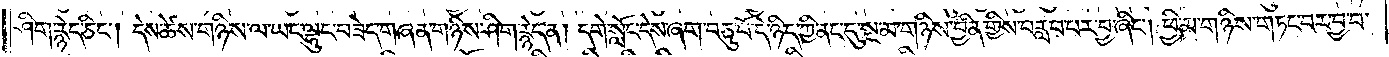ཤིག་རྙེད་ཅིང༌། དེས་ཚེས་གཉིས་ལ་ཡང་ལྷུང་བཟེད་གཞན་གཉིས་ཤིག་རྙེད་ན། དགེ་སློང་དེས་ཞག་བཅུ་པོ་དེ་ཉིད་ཀྱི་ནང་དུ་སྔ་མ་གཉིས་བྱིན་གྱིས་བརླབ་པར་བྱ་ཞིང༌། ཕྱི་མ་གཉིས་གཏང་བར་བྱ་བ་
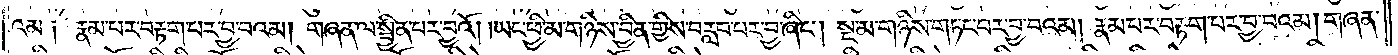འམ༑ རྣམ་པར་བརྟག་པར་བྱ་བའམ། གཞན་ལ་སྦྱིན་པར་བྱའོ། །ཡང་ཕྱི་མ་གཉིས་བྱིན་གྱིས་བརླབ་པར་བྱ་ཞིང༌། སྔ་མ་གཉིས་གཏང་བར་བྱ་བའམ། རྣམ་པར་བརྟག་པར་བྱ་བའམ། གཞན་
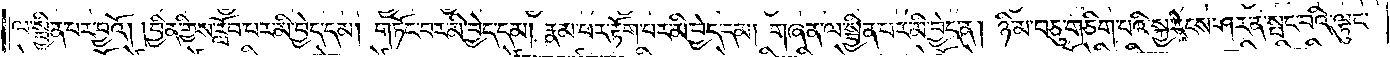ལ་སྦྱིན་པར་བྱའོ། །བྱིན་གྱིས་རློབ་པར་མི་བྱེད་དམ། གཏོང་བར་མི་བྱེད་དམ། རྣམ་པར་རྟོག་པར་མི་བྱེད་དམ། གཞན་ལ་སྦྱིན་པར་མི་བྱེད་ན། ཉི་མ་བཅུ་གཅིག་པའི་སྐྱ་རེངས་ཤར་ན་སྤང་བའི་ལྟུང་
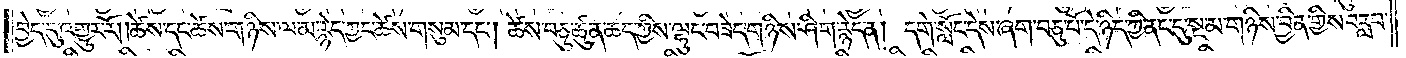བྱེད་དུ་འགྱུར་རོ། །ཚེས་དང་ཚེས་གཉིས་ལ་མ་རྙེད་ཀྱང་ཚེས་གསུམ་དང༌། ཚེས་བཅུ་ཚུན་ཆད་ཀྱིས་ལྷུང་བཟེད་གཉིས་ཤིག་རྙེད་ན། དགེ་སློང་དེས་ཞག་བཅུ་པོ་དེ་ཉིད་ཀྱི་ནང་དུ་སྔ་མ་གཉིས་བྱིན་གྱིས་བརླབ་
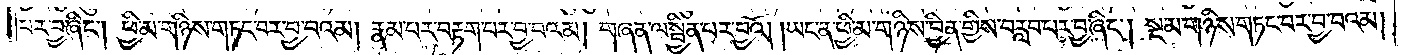པར་བྱ་ཞིང༌། ཕྱི་མ་གཉིས་གཏང་བར་བྱ་བའམ། རྣམ་པར་བརྟག་པར་བྱ་བའམ། གཞན་ལ་སྦྱིན་པར་བྱའོ། །ཡང་ན་ཕྱི་མ་གཉིས་བྱིན་གྱིས་བརླབ་པར་བྱ་ཞིང༌། སྔ་མ་གཉིས་གཏང་བར་བྱ་བའམ།
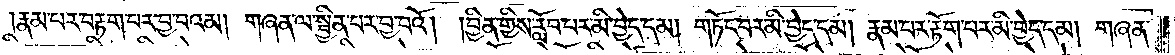རྣམ་པར་བརྟག་པར་བྱ་བའམ། གཞན་ལ་སྦྱིན་པར་བྱ་བའོ། །བྱིན་གྱིས་རློབ་པར་མི་བྱེད་དམ། གཏོང་བར་མི་བྱེད་དམ། རྣམ་པར་རྟོག་པར་མི་བྱེད་དམ། གཞན་
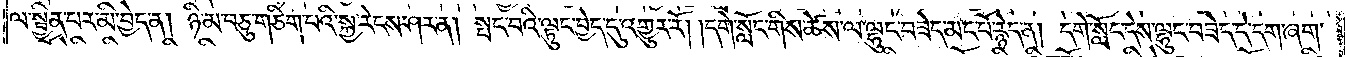ལ་སྦྱིན་པར་མི་བྱེད་ན། ཉི་མ་བཅུ་གཅིག་པའི་སྐྱ་རེངས་ཤར་ན། སྤང་བའི་ལྟུང་བྱེད་དུ་འགྱུར་རོ། །དགེ་སློང་གིས་ཚེས་ལ་ལྷུང་བཟེད་མང་པོ་རྙེད་ན། དགེ་སློང་དེས་ལྷུང་བཟེད་དེ་དག་ཞག་
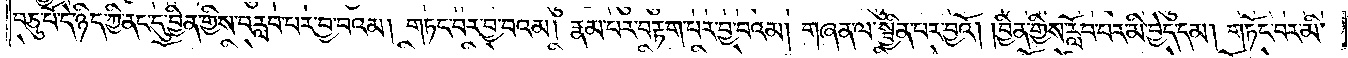བཅུ་པོ་དེ་ཉིད་ཀྱི་ནང་དུ་བྱིན་གྱིས་བརླབ་པར་བྱ་བའམ། གཏང་བར་བྱ་བའམ། རྣམ་པར་བརྟག་པར་བྱ་བའམ། གཞན་ལ་སྦྱིན་པར་བྱའོ། །བྱིན་གྱིས་རློབ་པར་མི་བྱེད་དམ། གཏོང་བར་མི་
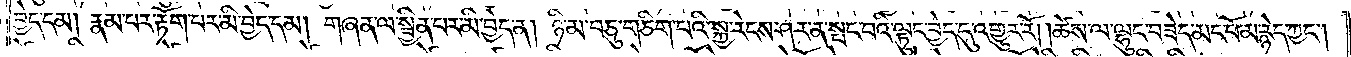བྱེད་དམ། རྣམ་པར་རྟོག་པར་མི་བྱེད་དམ། གཞན་ལ་སྦྱིན་པར་མི་བྱེད་ན། ཉི་མ་བཅུ་གཅིག་པའི་སྐྱ་རེངས་ཤར་ན་སྤང་བའི་ལྟུང་བྱེད་དུ་འགྱུར་རོ། །ཚེས་ལ་ལྷུང་བཟེད་མང་པོ་མ་རྙེད་ཀྱང༌།
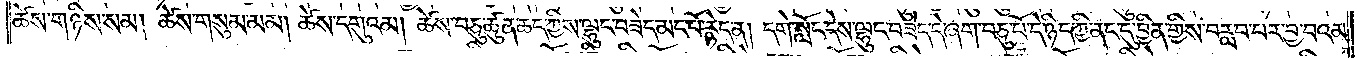ཚེས་གཉིས་སམ། ཚེས་གསུམ་མམ། ཚེས་དགུའམ། ཚེས་བཅུ་ཚུན་ཆད་ཀྱིས་ལྷུང་བཟེད་མང་པོ་རྙེད་ན། དགེ་སློང་དེས་ལྷུང་བཟེད་དེ་ཞག་བཅུ་པོ་དེ་ཉིད་ཀྱི་ནང་དུ་བྱིན་གྱིས་བརླབ་པར་བྱ་བའམ་
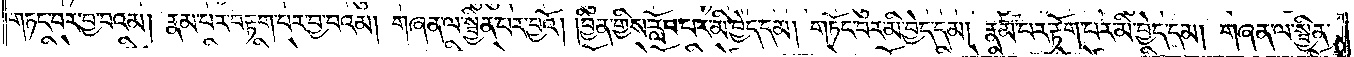གཏང་བར་བྱ་བའམ། རྣམ་པར་བརྟག་པར་བྱ་བའམ། གཞན་ལ་སྦྱིན་པར་བྱའོ། །བྱིན་གྱིས་རློབ་པར་མི་བྱེད་དམ། གཏོང་བར་མི་བྱེད་དམ། རྣམ་པར་རྟོག་པར་མི་བྱེད་དམ། གཞན་ལ་སྦྱིན་
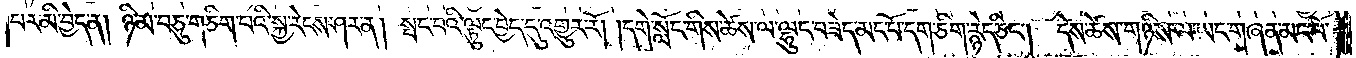པར་མི་བྱེད་ན། ཉི་མ་བཅུ་གཅིག་པའི་སྐྱ་རེངས་ཤར་ན། སྤང་བའི་ལྟུང་བྱེད་དུ་འགྱུར་རོ། །དགེ་སློང་གིས་ཚེས་ལ་ལྷུང་བཟེད་མང་པོ་དག་ཅིག་རྙེད་ཅིང༌། དེས་ཚེས་གཉིས་ལ་ཡང་གཞན་མང་པོ་
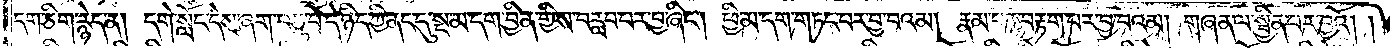དག་ཅིག་རྙེད་ན། དགེ་སློང་དེས་ཞག་བཅུ་པོ་དེ་ཉིད་ཀྱི་ནང་དུ་སྔ་མ་དག་བྱིན་གྱིས་བརླབ་པར་བྱ་ཞིང༌། ཕྱི་མ་དག་གཏང་བར་བྱ་བའམ། རྣམ་པར་བརྟག་པར་བྱ་བའམ། གཞན་ལ་སྦྱིན་པར་བྱའོ། །
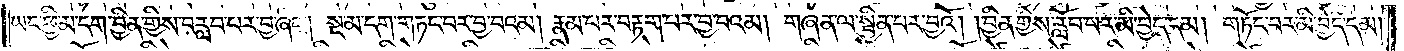ཡང་ཕྱི་མ་དག་བྱིན་གྱིས་བརླབ་པར་བྱ་ཞིང༌། སྔ་མ་དག་གཏང་བར་བྱ་བའམ། རྣམ་པར་བརྟག་པར་བྱ་བའམ། གཞན་ལ་སྦྱིན་པར་བྱའོ། །བྱིན་གྱིས་རློབ་པར་མི་བྱེད་དམ། གཏོང་བར་མི་བྱེད་དམ།
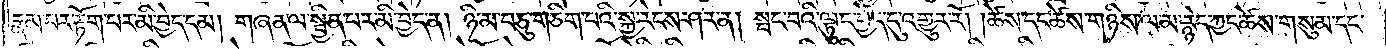རྣམ་པར་རྟོག་པར་མི་བྱེད་དམ། གཞན་ལ་སྦྱིན་པར་མི་བྱེད་ན། ཉི་མ་བཅུ་གཅིག་པའི་སྐྱ་རེངས་ཤར་ན། སྤང་བའི་ལྟུང་བྱེད་དུ་འགྱུར་རོ། །ཚེས་དང་ཚེས་གཉིས་ལ་མ་རྙེད་ཀྱང་ཚེས་གསུམ་དང་
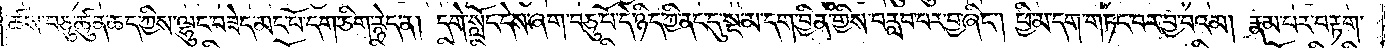ཚས་བཅུ་ཚུན་ཆད་ཀྱིས་ལྷུང་བཟེད་མང་པོ་དག་ཅིག་རྙེད་ན། དགེ་སློང་དེས་ཞག་བཅུ་པོ་དེ་ཉིད་ཀྱི་ནང་དུ་སྔ་མ་དག་བྱིན་གྱིས་བརླབ་པར་བྱ་ཞིང༌། ཕྱི་མ་དག་གཏང་བར་བྱ་བའམ། རྣམ་པར་བརྟག་
